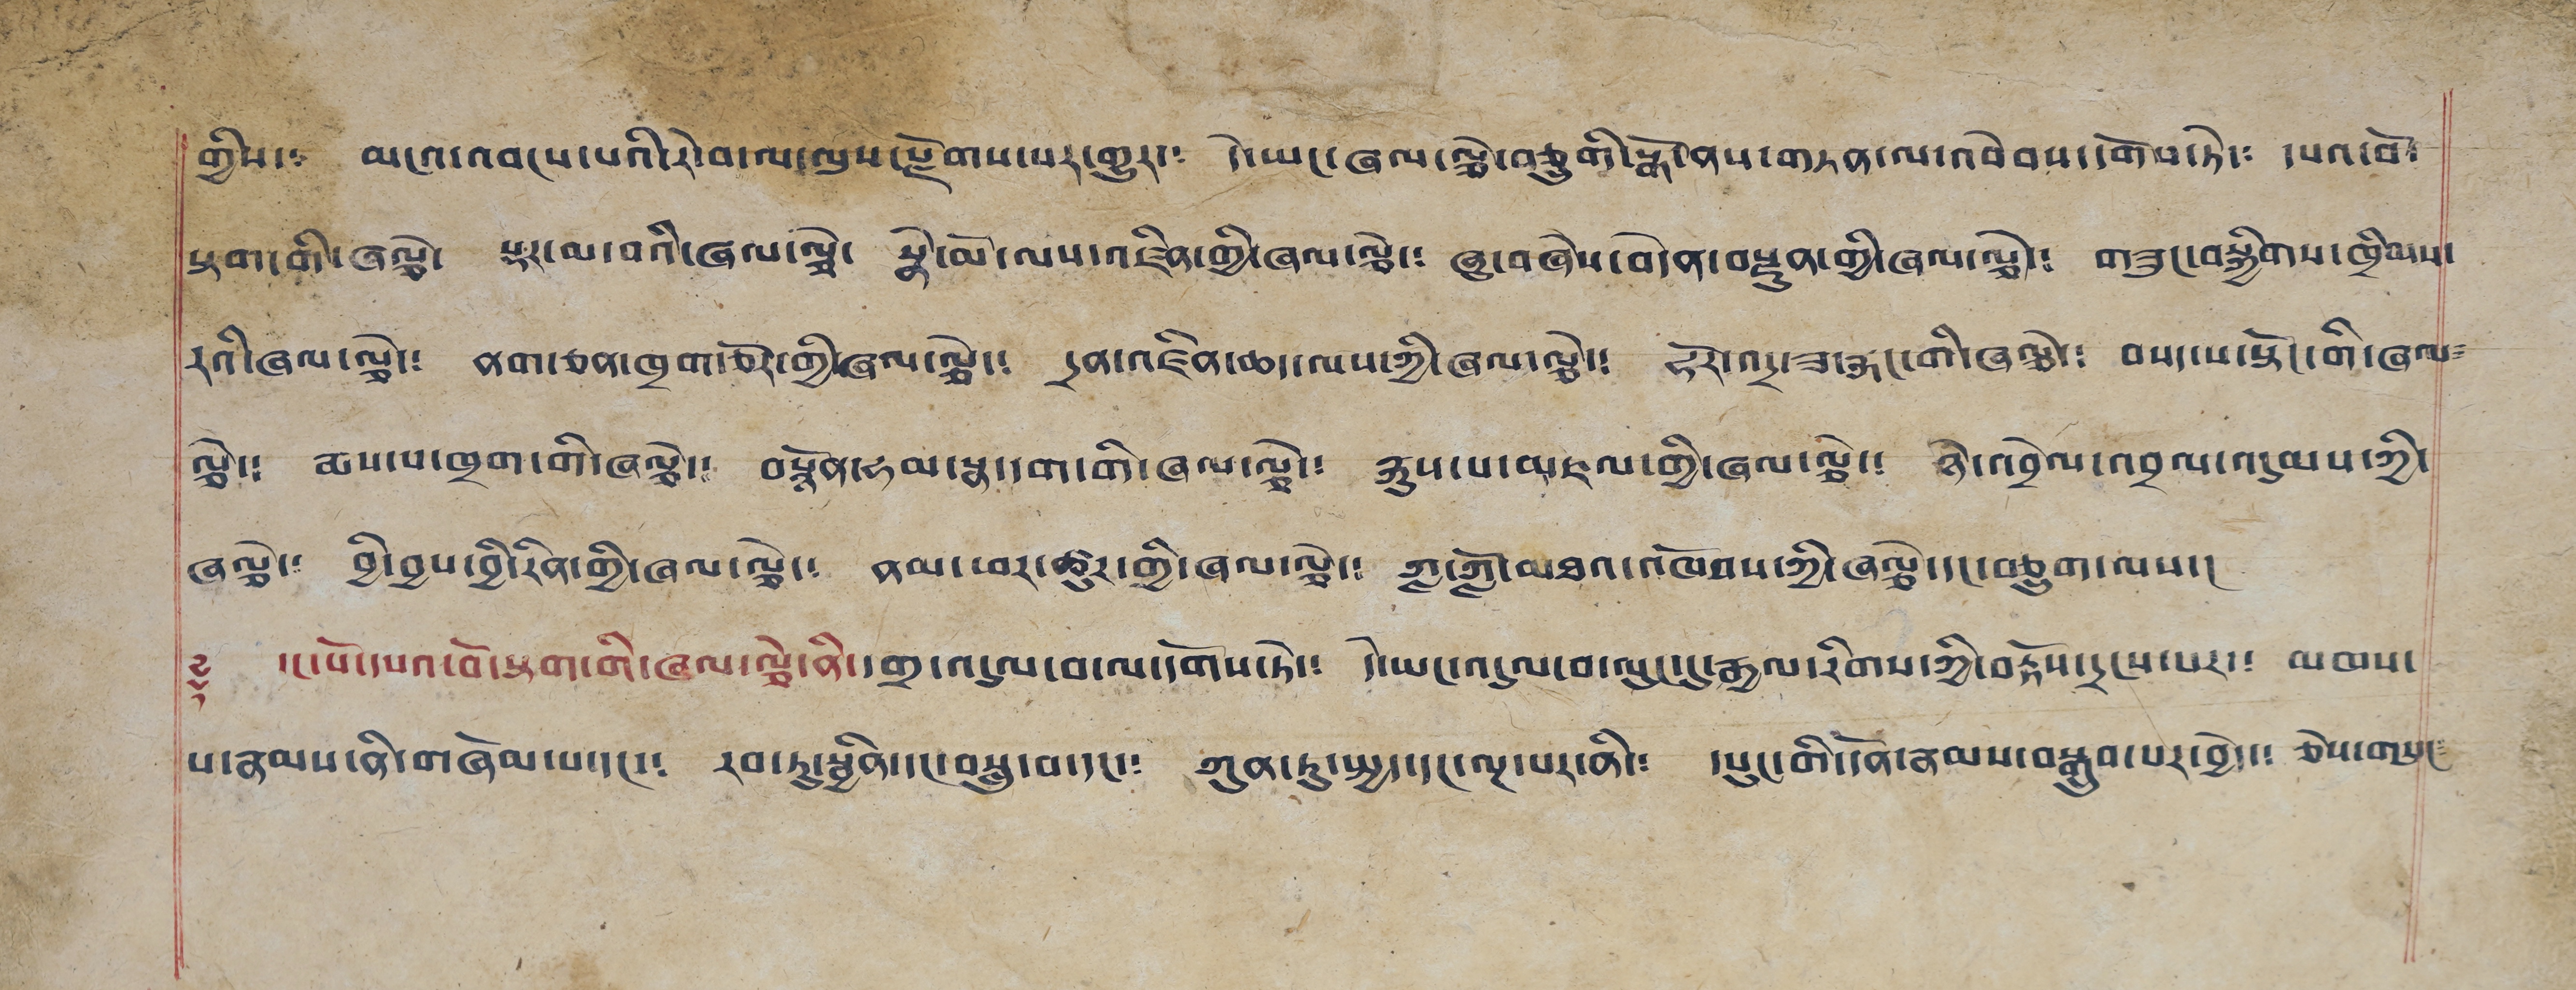གྱིས་༴ མངའ་འབངས་པའི་རེ་བ་ལ་ལུས་རྫོགས་པར་གྱུར་༴ དེ་ཡང་ཞལ་ལྕེ་བཅུགི་སྒོ་ནས་གཏན་ལ་འབེབས་དགོས་ཏེ་༴ དཔའ་བོ་
སྟག་གི་ཞལྕེ་། སྡར་མ་བའི་ཞལ་ལྕེ། སྣེ་མོ་ལས་འཛིན་གྱི་ཞལ་ལྕེ་༴ ཞུ་བཞེས་བདེན་བརྫུན་གྱི་ཞལ་ལྕེ་༴ གཟུང་བསྐྱིགས་ཁྲིམས་
རའི་ཞལ་ལྕེ་༴ ནག་ཅན་ཁྲག་ཅོར་གྱི་ཞལ་ལྕེ་༴ དྲན་འཛིན་ཆད་ལས་ཀྱི་ཞལ་ལྕེ་༴ ཧོར་འདྲ་ཟ་རྐང་གི་ཞལྕེ་༴ བསད་པ་སྟོང་གི་ཞལ༴
ལྕེ་༴ རྨས་པ་ཁྲག་གི་ཞལྕེ་༴ བསྙོན་ཧམ་སྣ་དག་གི་ཞལ་ལྕེ་༴ རྐུས་པ་མཇལ་གྱི་ཞལ་ལྕེ་༴ ཉེ་འབྲེལ་འབྲལ་འདུམས་ཀྱི་
ཞལྕེ་༴ བྱི་བྱས་བྱི་རིན་གྱི་ཞལ་ལྕེ་༴ ནམ་ཕར་ཚུར་གྱི་ཞལ་ལྕེ་༴ ཀླ་གློ་མཐའ་འཁོབས་ཀྱི་ཞལྕེ་དང་བཅུག་ལས་༴
༈ དང་པོ་དཔའ་བོ་སྟག་གི་ཞལ་ལྕེ་ནི་དགྲ་འདུལ་བ་ལ་དགོས་ཏེ་༴ དེ་ཡང་འདུལ་བ་ལུང་དུ་རྒྱལ་རིགས་ཀྱི་བརྟོས་དྲངས་པར་༴ མཁས་
པ་རྣམས་ནི་གཞོམ་པ་དང་༴ རབ་ཏུ་སྦྱིན་དང་བསླུ་བ་དང་༴ ཀུན་ཏུ་སྤྱད་དང་ལྔ་པར་ནི་༴ དཔུང་གི་དོན་རྣམས་བསྒྲུབ་པར་བྱེད་༴ ཅེས་གསུང༴
